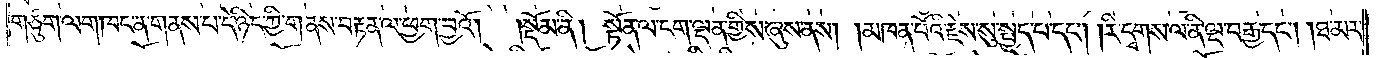གཙུག་ལག་ཁང་ན་གནས་པ་དེ་ཉིད་ཀྱི་གནས་བརྟན་ལ་ཕྱག་བྱའོ།    །སྡོམ་ནི། སྟོན་ལ་ངག་ལྡན་གྱིས་ཞུས་ནས། མཁན་པོའི་རྗེས་སུ་སྤྱད་པ་དང༌། རི་དྭགས་ལ་ནི་ལྔ་བརྒྱ་དང༌། ཐ་མར་
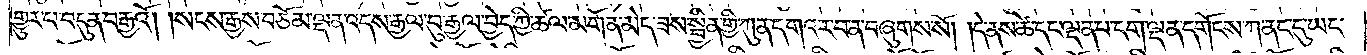གྱུར་པ་བདུན་བརྒྱའོ། །སངས་རྒྱས་བཅོམ་ལྡན་འདས་རྒྱལ་བུ་རྒྱལ་བྱེད་ཀྱི་ཚལ་མགོན་མེད་ཟས་སྦྱིན་གྱི་ཀུན་དགའ་ར་བ་ན་བཞུགས་སོ། །དེ་ནས་ཚེ་དང་ལྡན་པ་ངག་ལྡན་དགོངས་ཀ་ནང་དུ་ཡང་
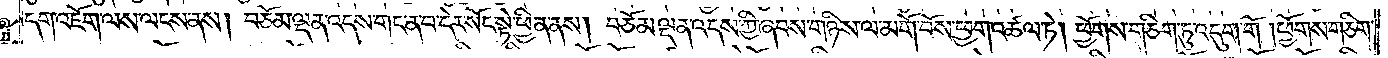དག་འཇོག་ལས་ལངས་ནས། བཅོམ་ལྡན་འདས་གང་ན་བ་དེར་སོང་སྟེ་ཕྱིན་ནས། བཅོམ་ལྡན་འདས་ཀྱི་ཞབས་གཉིས་ལ་མགོ་བོས་ཕྱག་འཚལ་ཏེ། ཕྱོགས་གཅིག་ཏུ་འདུག་གོ །ཕྱོགས་གཅིག་
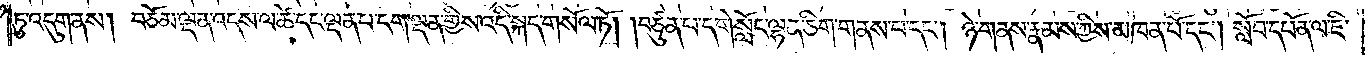ཏུ་འདུག་ནས། བཅོམ་ལྡན་འདས་ལ་ཚེ་དང་ལྡན་པ་ངག་ལྡན་གྱིས་འདི་སྐད་གསོལ་ཏོ། །བཙུན་པ་དགེ་སློང་ལྷན་ཅིག་གནས་པ་དང༌། ཉེ་གནས་རྣམས་ཀྱིས་མཁན་པོ་དང༌། སློབ་དཔོན་ལ་ཇི་
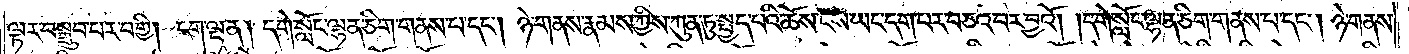ལྟར་བསྒྲུབ་པར་བགྱི། ངག་ལྡན། དགེ་སློང་ལྷན་ཅིག་གནས་པ་དང༌། ཉེ་གནས་རྣམས་ཀྱིས་ཀུན་ཏུ་སྤྱད་པའི་ཆོས་ངས་ཡང་དག་པར་བཅའ་བར་བྱའོ། །དགེ་སློང་ལྷན་ཅིག་གནས་པ་དང༌། ཉེ་གནས་
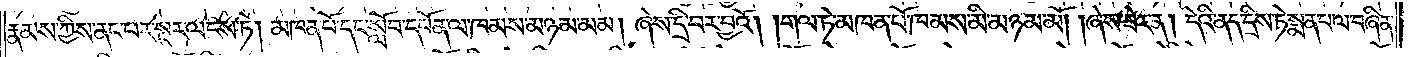རྣམས་ཀྱིས་ནང་པར་སྔར་ལངས་ཏེ། མཁན་པོ་དང་སློབ་དཔོན་ལ་ཁམས་མཉམ་མམ། ཞེས་དྲི་བར་བྱའོ། །གལ་ཏེ་མཁན་པོ་ཁམས་མི་མཉམ་མོ། །ཞེས་ཟེར་ན། དེའི་ནད་དྲིས་ཏེ་སྨན་པ་ལ་བཞིན་
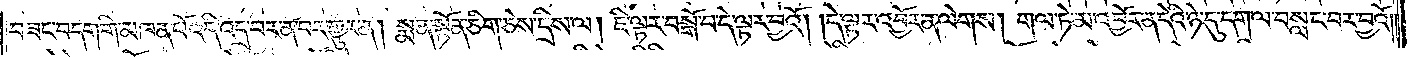བཟང་བདག་གི་མཁན་པོ་འདི་འདྲ་བར་ན་བར་གྱུར་ན། སྨན་སྟོན་ཅིག་ཅེས་དྲིས་ལ། ཇི་ལྟར་བསྒོ་བ་དེ་ལྟར་བྱའོ། །དེ་ལྟར་འབྱོར་ན་ལེགས། གལ་ཏེ་མ་འབྱོར་ན་དེའི་ཉེ་དུ་དག་ལ་བསླང་བར་བྱའོ༎
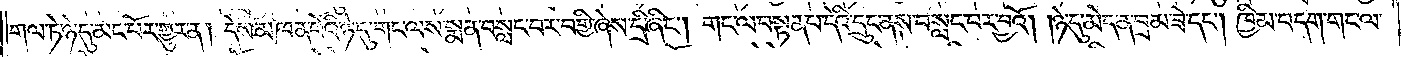གལ་ཏེ་ཉེ་དུ་མང་པོར་གྱུར་ན། དེས་མཁན་པོའི་ཉེ་དུ་གང་ལས་སྨན་བསླང་བར་བགྱི་ཞེས་དྲི་ཞིང༌། གང་ལ་བསྟན་པ་དེའི་དྲུང་ནས་བསླང་བར་བྱའོ། །ཉེ་དུ་མེད་ན་བྲམ་ཟེ་དང༌། ཁྱིམ་བདག་གང་ལ་
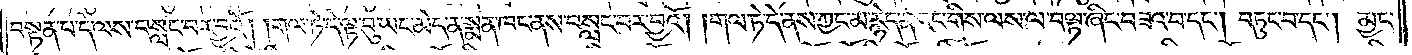བསྟན་པ་དེ་ལས་བསླང་བར་བྱའོ། །གལ་ཏེ་དེ་ལྟ་བུ་ཡང་མེད་ན་སྨན་ཁང་ནས་བསླང་བར་བྱའོ། །གལ་ཏེ་དེ་ནས་ཀྱང་མ་རྙེད་ན་རང་གིས་ལས་ལ་བལྟ་ཞིང་བཟའ་བ་དང༌། བཏུང་བ་དང༌། མྱང་
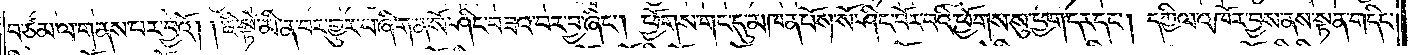བ་ཙམ་ལ་གནས་པར་བྱའོ། །ཇི་སྟེ་མིན་བར་གྱུར་པ་ཞིག་ན་སོ་ཤིང་བཟའ་བར་བྱ་ཞིང༌། ཕྱོགས་གང་དུ་མཁན་པོས་སོ་ཤིང་བོར་བའི་ཕྱོགས་སུ་ཕྱག་དར་དང༌། དཀྱིལ་འཁོར་བྱས་ནས་སྟན་གདིང་
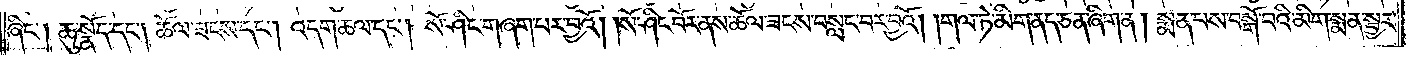ཞིང༌། ཆུ་སྣོད་དང༌། ཆོལ་ཟངས་དང༌། འདག་ཆལ་དང༌། སོ་ཤིང་གཞག་པར་བྱའོ། །སོ་ཤིང་བོར་ནས་ཆོལ་ཟངས་བསླང་བར་བྱའོ། །གལ་ཏེ་མིག་ནད་ཅན་ཞིག་ན། སྨན་པས་བསྒོ་བའི་མིག་སྨན་སྦྱར་
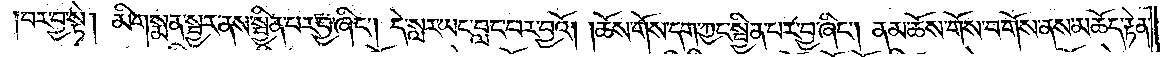བར་བྱ་སྟེ། མིག་སྨན་སྦྱར་ནས་སྦྱིན་པར་བྱ་ཞིང༌། དེ་སླར་ཡང་བླང་བར་བྱའོ། །ཆོས་གོས་དག་ཀྱང་སྦྱིན་པར་བྱ་ཞིང༌། ནམ་ཆོས་གོས་བགོས་ནས་མཆོད་རྟེན་
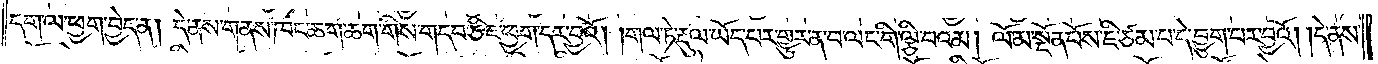དག་ལ་ཕྱག་བྱེད་ན། དེ་ནས་གནས་ཁང་ཆག་ཆག་གིས་གདབ་ཅིང་ཕྱག་དར་བྱའོ། །གལ་ཏེ་རྡུལ་ཡོད་པར་གྱུར་ན་བ་ལང་གི་ལྕི་བའམ། ལོ་མ་སྔོན་པོས་ཇི་ཙམ་པ་དེ་བྱུག་པར་བྱའོ། །དེ་ནས་
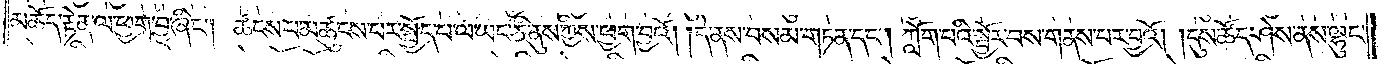མཆོད་རྟེན་ལ་ཕྱག་བྱ་ཞིང༌། ཚངས་པ་མཚུངས་པར་སྤྱོད་པ་ལ་ཡང་ཅི་ནུས་ཀྱིས་ཕྱག་བྱའོ། །དེ་ནས་བསམ་གཏན་དང༌། ཀློག་པའི་སྦྱོར་བས་གནས་པར་བྱའོ། །དུས་ཚོད་ཤེས་ནས་ལྷུང་
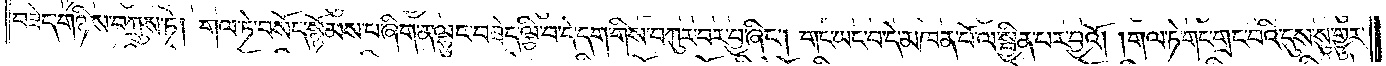བཟེད་གཉིས་བཀྲུས་ཏེ། གལ་ཏེ་བསོད་སྙོམས་པ་ཞིག་ན་ལྷུང་བཟེད་ལྕི་བ་དེ་དག་གིས་བཀུར་བར་བྱ་ཞིང༌། གང་ཡང་བ་དེ་མཁན་པོ་ལ་སྦྱིན་པར་བྱའོ། །གལ་ཏེ་གང་གྲང་བའི་དུས་སུ་གྱུར་
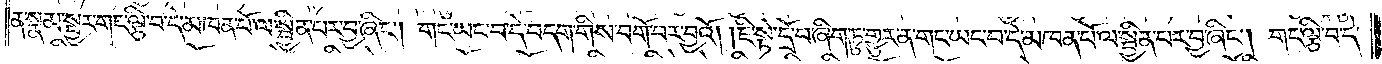ན་སྣམ་སྦྱར་གང་ལྕི་བ་དེ་མཁན་པོ་ལ་སྦྱིན་པར་བྱ་ཞིང༌། གང་ཡང་བ་དེ་བདག་གིས་བགོ་བར་བྱའོ། །ཇི་སྟེ་དྲོ་བ་ཞིག་ཏུ་གྱུར་ན་གང་ཡང་བ་དེ་མཁན་པོ་ལ་སྦྱིན་པར་བྱ་ཞིང༌། གང་ལྕི་བ་དེ་
